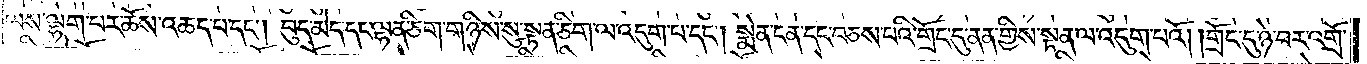ལས་ལྷག་པར་ཆོས་འཆད་པ་དང༌། བུད་མེད་དང་ལྷན་ཅིག་གཉིས་སུ་སྟན་ཅིག་ལ་འདུག་པ་དང༌། སྨེན་ངན་དང་བཅས་པའི་གྲོང་དུ་ནན་གྱིས་སྟན་ལ་འདུག་པའོ། །གྲོང་དུ་ཉེ་བར་འགྲོ་
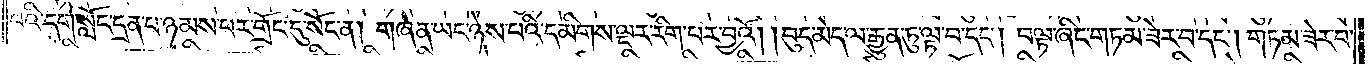བའི་དགེ་སློང་དྲན་པ་ཉམས་པར་གྲོང་དུ་སོང་ན། གཞན་ཡང་ཉེས་པའི་དམིགས་ལྔར་རིག་པར་བྱའོ། །བུད་མེད་ལ་རྒྱུན་དུ་ལྟ་བ་དང༌། བལྟ་ཞིང་གཏམ་ཟེར་བ་དང༌། གཏམ་ཟེར་བ་
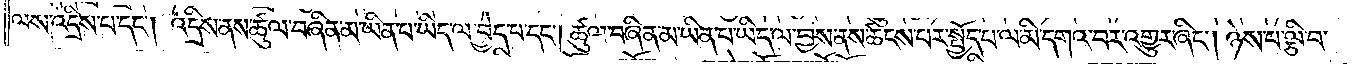ལས་འདྲིས་པ་དང༌། འདྲིས་ནས་ཚུལ་བཞིན་མ་ཡིན་པ་ཡིད་ལ་བྱེད་པ་དང༌། ཚུལ་བཞིན་མ་ཡིན་པ་ཡིད་ལ་བྱས་ནས་ཚངས་པར་སྤྱོད་པ་ལ་མི་དགའ་བར་འགྱུར་ཞིང༌། ཉེས་པ་ལྕི་བ་
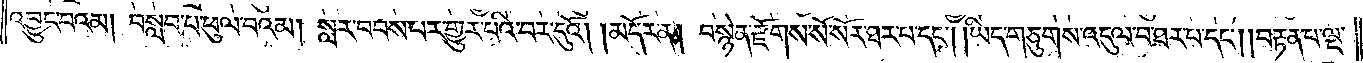འབྱུང་བའམ། བསླབ་པ་ཕུལ་བའམ། སླར་བབས་པར་གྱུར་བའི་བར་དུའོ། །མདོར་ན། བསྙེན་རྫོགས་སོ་སོར་ཐར་པ་དང༌། །ཡིད་གཅུགས་འདུལ་བ་ཐར་པ་དང༌། །བརྟན་པ་ལྔ་
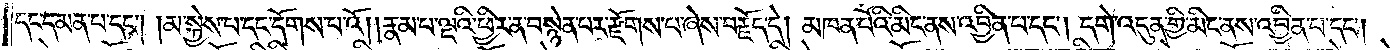དང་དམན་པ་དང༌། །མ་སྐྱེས་པ་དང་དོགས་པའོ། །རྣམ་པ་ལྔའི་ཕྱིར་ན་བསྙེན་པར་རྫོགས་པ་ཞེས་བརྗོད་དེ། མཁན་པོའི་མིང་ནས་འབྱིན་པ་དང༌། དགེ་འདུན་གྱི་མིང་ནས་འབྱིན་པ་དང༌།
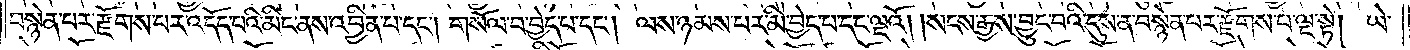བསྙེན་པར་རྫོགས་པར་འདོད་པའི་མིང་ནས་འབྱིན་པ་དང༌། གསོལ་བ་བྱེད་པ་དང༌། ལས་ཉམས་པར་མི་བྱེད་པ་དང་ལྔའོ། །སངས་རྒྱས་བྱུང་བའི་དུས་ན་བསྙེན་པར་རྫོགས་པ་ལྔ་སྟེ། ཡེ་
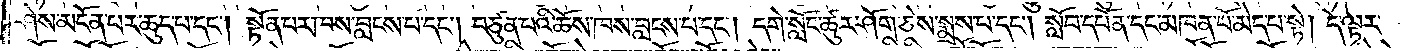ཤེས་མངོན་པར་ཆུད་པ་དང༌། སྟོན་པར་ཁས་བླངས་པ་དང༌། བཙུན་པའི་ཆོས་ཁས་བླངས་པ་དང༌། དགེ་སློང་ཚུར་ཤོག་ཅེས་སྨྲས་པ་དང༌། སློབ་དཔོན་དང་མཁན་པོ་མེད་པ་སྟེ། དེ་ལྟར་
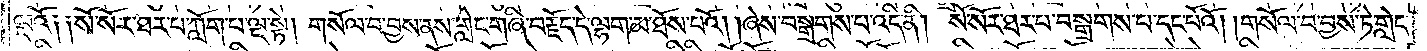ལྔའོ༑ ༑སོ་སོར་ཐར་པ་ཀློག་པ་ལྔ་སྟེ། གསོལ་བ་བྱས་ནས་གླེང་གཞི་བརྗོད་དེ་ལྷག་མ་ཐོས་པའོ། །ཞེས་བསྒྲགས་པ་འདི་ནི། སོ་སོར་ཐར་པ་བསྒྲགས་པ་དང་པོའོ། །གསོལ་བ་བྱས་ཏེ་གླེང་
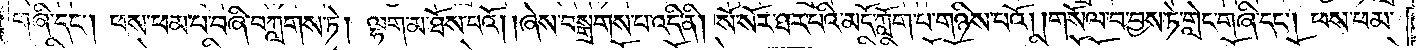གཞི་དང༌། ཕས་ཕམ་པ་བཞི་བཀླགས་ཏེ། ལྷག་མ་ཐོས་པའོ། །ཞེས་བསྒྲགས་པ་འདི་ནི། སོ་སོར་ཐར་པའི་མདོ་ཀློག་པ་གཉིས་པའོ། །གསོལ་བ་བྱས་ཏེ་གླང་གཞི་དང༌། ཕས་ཕམ་
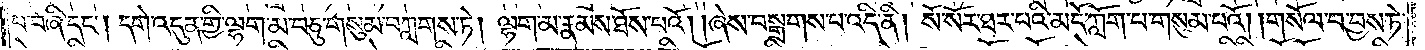པ་བཞི་དང༌། དགེ་འདུན་གྱི་ལྷག་མ་བཅུ་གསུམ་བཀླགས་ཏེ། ལྷག་མ་རྣམས་ཐོས་པའོ། །ཞེས་བསྒྲགས་པ་འདི་ནི། སོ་སོར་ཐར་པའི་མདོ་ཀློག་པ་གསུམ་པའོ། །གསོལ་བ་བྱས་ཏེ་
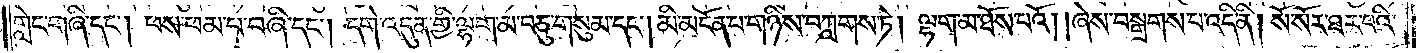གླེང་གཞི་དང༌། ཕས་ཕམ་པ་བཞི་དང༌། དགེ་འདུན་གྱི་ལྷག་མ་བཅུ་གསུམ་དང༌། མི་མངོན་པ་གཉིས་བཀླགས་ཏེ། ལྷག་མ་ཐོས་པའོ། །ཞེས་བསྒྲགས་པ་འདི་ནི། སོ་སོར་ཐར་པའི་
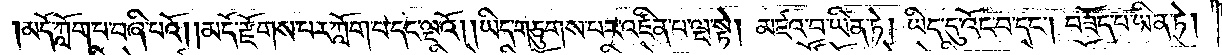མདོ་ཀློག་པ་བཞི་པའོ། །མདོ་རྫོགས་པར་ཀློག་པ་དང་ལྔའོ། །ཡིད་གཅུགས་པར་འཛིན་པ་ལྔ་སྟེ། མཛའ་བ་ཡིན་ཏེ། ཡིད་དུ་འོང་བ་དང༌། བཟོད་པ་ཡིན་ཏེ།
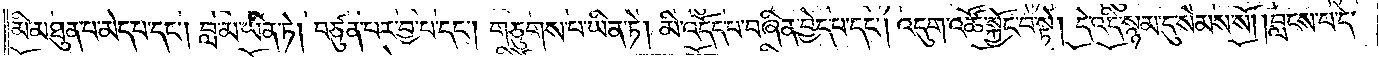མི་མཐུན་པ་མེད་པ་དང༌། བླ་མ་ཡིན་ཏེ། བཙུན་པར་བྱ་པ་དང༌། གཅུགས་པ་ཡིན་ཏེ། མི་འདོད་པ་བཞིན་བྱེད་པ་དང༌། འདུག་འཚོ་སྐྱོང་བ་སྟེ། དེ་འདི་སྙམ་དུ་སེམས་སོ། །བླངས་པ་དེ་
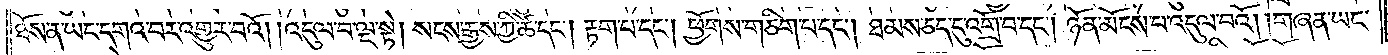ཐོས་ན་ཡང་དགའ་བར་འགྱུར་བའོ། །འདུལ་བ་ལྔ་སྟེ། སངས་རྒྱས་ཀྱི་ཚེ་དང༌། རྟག་པ་དང༌། ཕྱོགས་གཅིག་པ་དང༌། ཐམས་ཅད་དུ་འགྲོ་བ་དང༌། ཉོན་མོངས་པ་འདུལ་བའོ། །གཞན་ཡང་
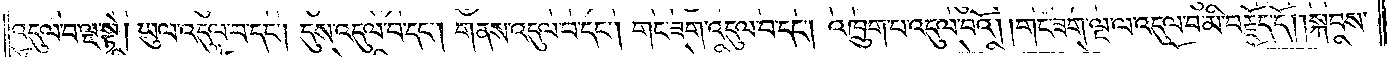འདུལ་བ་ལྔ་སྟེ། ཡུལ་འདུལ་བ་དང༌། དུས་འདུལ་བ་དང༌། གནས་འདུལ་བ་དང༌། གང་ཟག་འདུལ་བ་དང༌། འཁྲུག་པ་འདུལ་བའོ། །གང་ཟག་ལྔ་ལ་འདུལ་བ་མི་བརྗོད་དོ། །སྐབས་
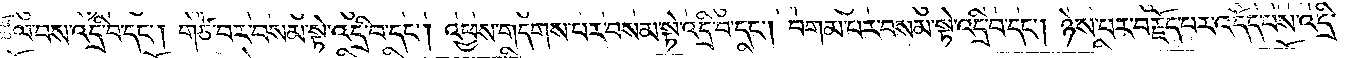ཚོལ་བས་འདྲི་བ་དང༌། གཙེ་བར་བསམ་སྟེ་འདྲི་བ་དང༌། འཕྱས་གདགས་པར་བསམ་སྟེ་འདྲི་བ་དང༌། བགམ་པར་བསམ་སྟེ་འདྲི་བ་དང༌། ཉེས་པར་བརྗོད་པར་འདོད་པས་འདྲི་
